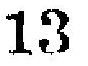13
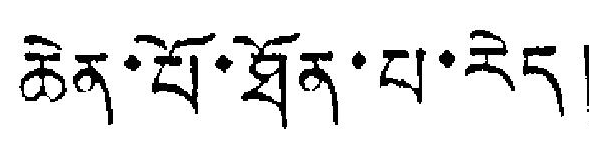ཆེན་པོ་ཐོན་པ་རེད།
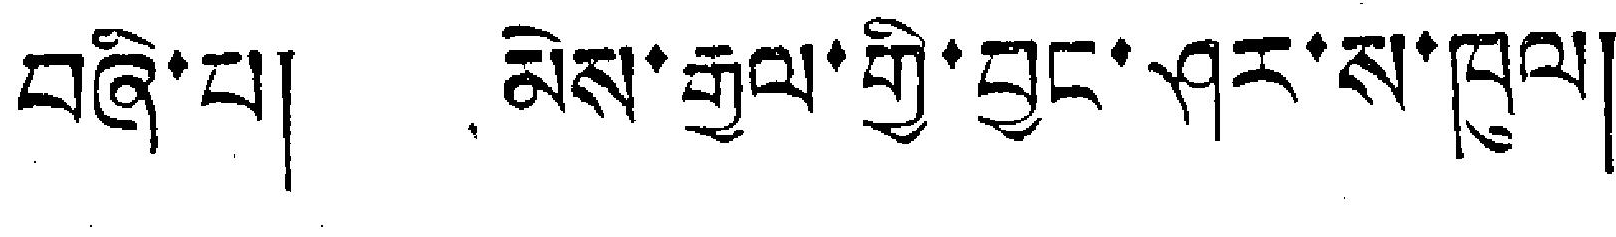བཞི་པ། མེས་རྒྱལ་གྱི་བྱང་ཤར་ས་ཁུལ།
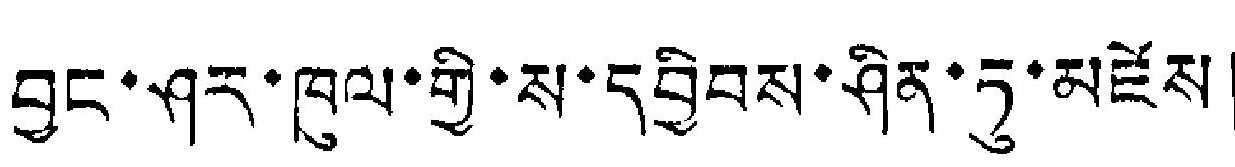བྱང་ཤར་ཁུལ་གྱི་ས་དབྱིབས་ཤིན་ཏུ་མཛེས།
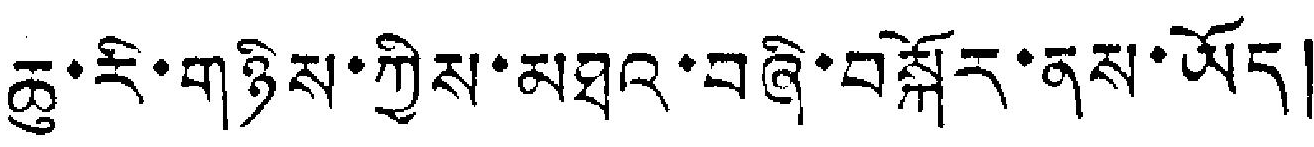ཆུ་རི་གཉིས་ཀྱིས་མཐའ་བཞི་བསྐོར་ནས་ཡོད།
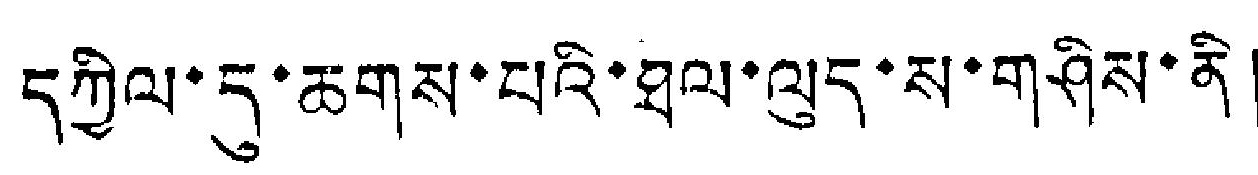དཀྱིལ་དུ་ཆགས་པའི་ཐལ་ལུད་ས་གཤིས་ནི།
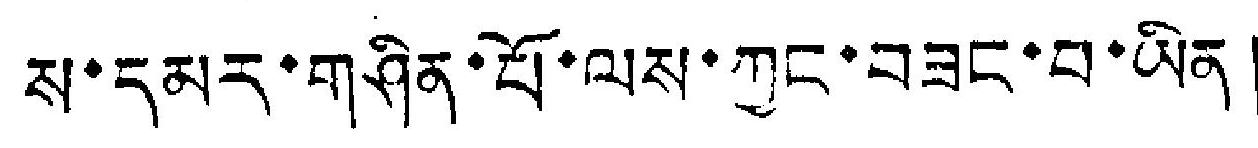ས་དམར་གཤིན་པོ་ལས་ཀྱང་བཟང་པ་ཡིན།
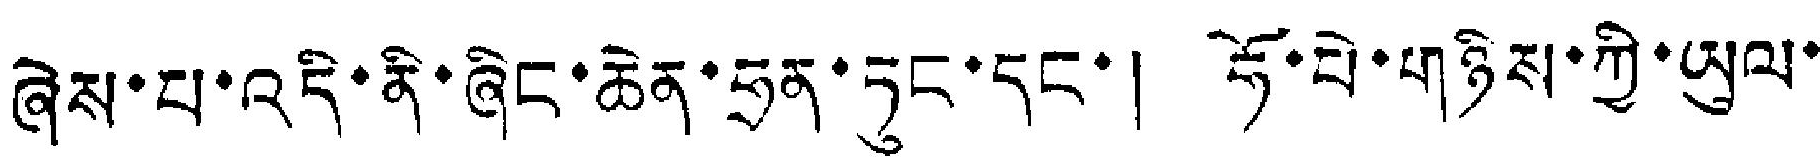ཞེས་པ་འདི་ནི་ཞིང་ཆེན་ཧྲན་ཏུང་དང་། ཧོ་པེ་གཉིས་ཀྱི་ཡུལ་
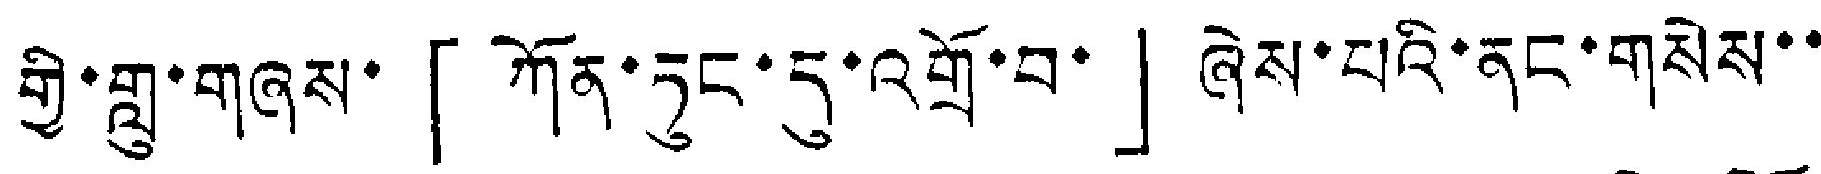གྱི་གླུ་གཞས་「ཀོན་ཏུང་དུ་འགྲོ་བ་」ཞེས་པའི་ནང་གསེས་་
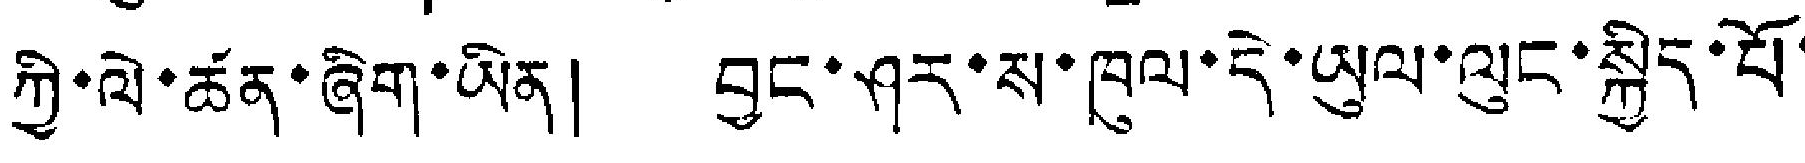ཀྱི་ལེ་ཚན་ཞིག་ཡིན། བྱང་ཤར་ས་ཁུལ་དེ་ཡུལ་ལུང་སྐྱིད་པོ་
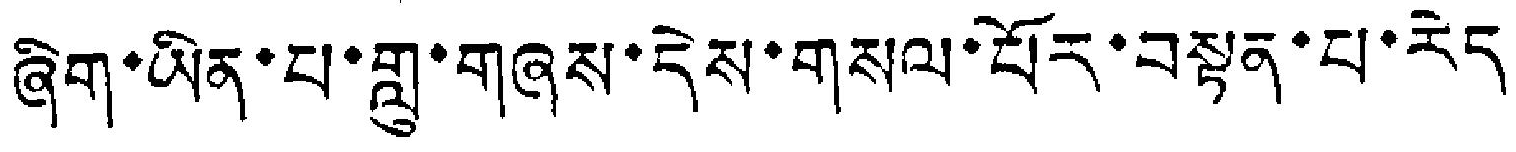ཞིག་ཡིན་པ་གླ་གཞས་དེས་གསལ་པོར་བསྟན་པ་རེད།
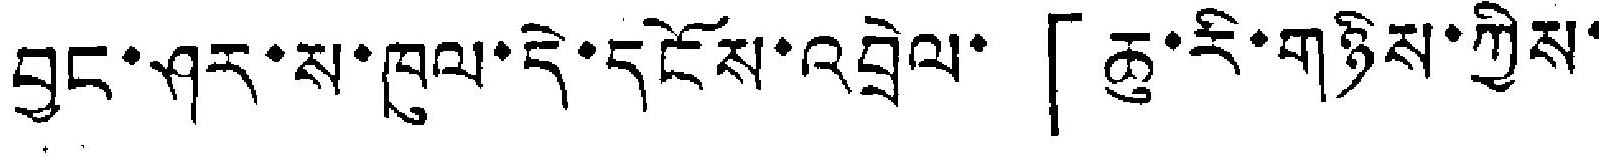བྱང་ཤར་ས་ཁུལ་དེ་དངོས་འབྲེལ་「ཆུ་རི་གཉིས་ཀྱིས་
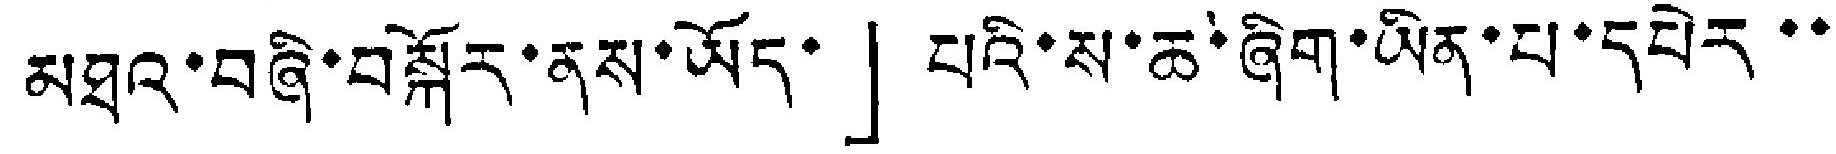མཐའ་བཞི་བསྐོར་ནས་ཡོད་」པའི་ས་ཆ་ཞིག་ཡིན་པ་དཔེར་་
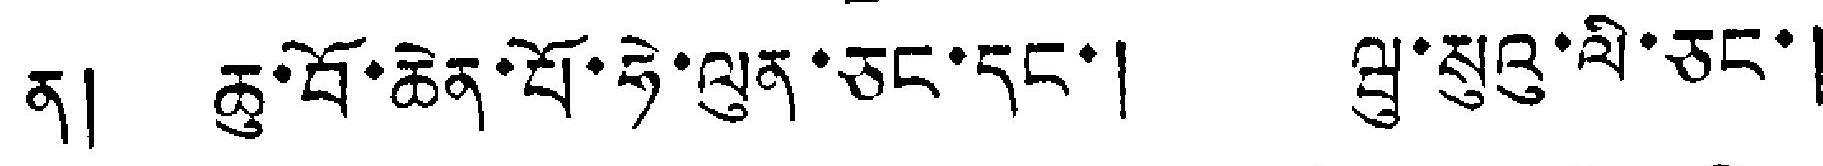ན། ཆུ་བོ་ཆེན་པོ་ཧེ་ལུན་ཅང་དང་། ཝུ་སུའུ་ལི་ཅང་།
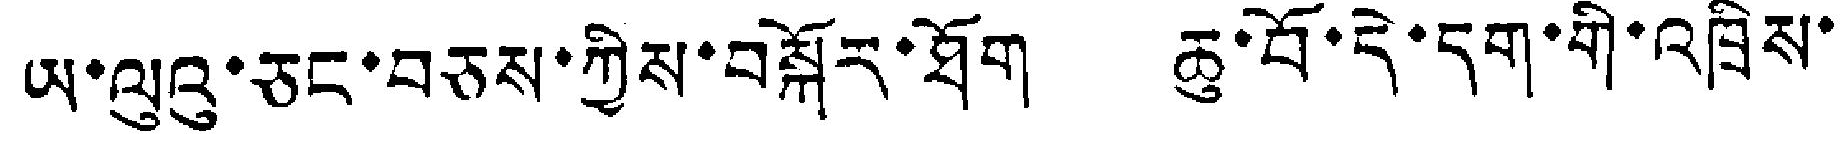ཡ་ལུའུ་ཅང་བཅས་ཀྱིས་བསྐོར་ཐོག ཆུ་བོ་དེ་དག་གི་འཁྲིས་
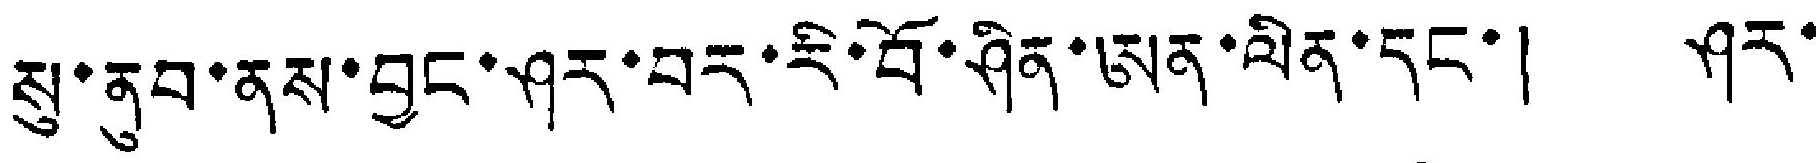སུ་ནུབ་ནས་བྱང་ཤར་བར་རི་བོ་ཤིན་ཨན་ལིན་དང་། ཤར་
